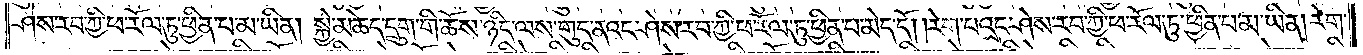ཤེས་རབ་ཀྱི་ཕ་རོལ་ཏུ་ཕྱིན་པ་མ་ཡིན། སྐྱེ་མཆེད་དྲུག་གི་ཆོས་ཉིད་ལས་གུད་ནའང་ཤེས་རབ་ཀྱི་ཕ་རོལ་ཏུ་ཕྱིན་པ་མེད་དོ། །རེག་པའང་ཤེས་རབ་ཀྱི་ཕ་རོལ་ཏུ་ཕྱིན་པ་མ་ཡིན། རེག་
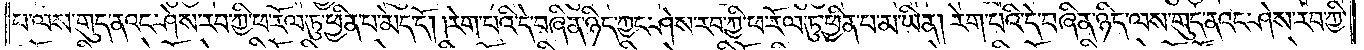པ་ལས་གུད་ནའང་ཤེས་རབ་ཀྱི་ཕ་རོལ་ཏུ་ཕྱིན་པ་མེད་དོ། །རེག་པའི་དེ་བཞིན་ཉིད་ཀྱང་ཤེས་རབ་ཀྱི་ཕ་རོལ་ཏུ་ཕྱིན་པ་མ་ཡིན། རེག་པའི་དེ་བཞིན་ཉིད་ལས་གུད་ནའང་ཤེས་རབ་ཀྱི་
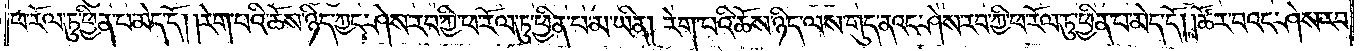ཕ་རོལ་ཏུ་ཕྱིན་པ་མེད་དོ། །རེག་པའི་ཆོས་ཉིད་ཀྱང་ཤེས་རབ་ཀྱི་ཕ་རོལ་ཏུ་ཕྱིན་པ་མ་ཡིན། རེག་པའི་ཆོས་ཉིད་ལས་གུད་ནའང་ཤེས་རབ་ཀྱི་ཕ་རོལ་ཏུ་ཕྱིན་པ་མེད་དོ། །ཚོར་བའང་ཤེས་རབ་
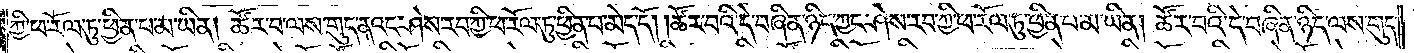ཀྱི་ཕ་རོལ་ཏུ་ཕྱིན་པ་མ་ཡིན། ཚོར་བ་ལས་གུད་ནའང་ཤེས་རབ་ཀྱི་ཕ་རོལ་ཏུ་ཕྱིན་པ་མེད་དོ། །ཚོར་བའི་དེ་བཞིན་ཉིད་ཀྱང་ཤེས་རབ་ཀྱི་ཕ་རོལ་ཏུ་ཕྱིན་པ་མ་ཡིན། ཚོར་བའི་དེ་བཞིན་ཉིད་ལས་གུད་
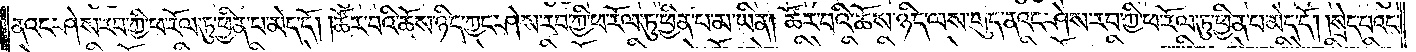ནའང་ཤེས་རབ་ཀྱི་ཕ་རོལ་ཏུ་ཕྱིན་པ་མེད་དོ། །ཚོར་བའི་ཆོས་ཉིད་ཀྱང་ཤེས་རབ་ཀྱི་ཕ་རོལ་ཏུ་ཕྱིན་པ་མ་ཡིན། ཚོར་བའི་ཆོས་ཉིད་ལས་གུད་ནའང་ཤེས་རབ་ཀྱི་ཕ་རོལ་ཏུ་ཕྱིན་པ་མེད་དོ། །སྲེད་པའང་
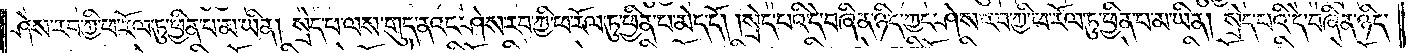ཤེས་རབ་ཀྱི་ཕ་རོལ་ཏུ་ཕྱིན་པ་མ་ཡིན། སྲེད་པ་ལས་གུད་ནའང་ཤེས་རབ་ཀྱི་ཕ་རོལ་ཏུ་ཕྱིན་པ་མེད་དོ། །སྲེད་པའི་དེ་བཞིན་ཉིད་ཀྱང་ཤེས་རབ་ཀྱི་ཕ་རོལ་ཏུ་ཕྱིན་པ་མ་ཡིན། སྲེད་པའི་དེ་བཞིན་ཉིད་
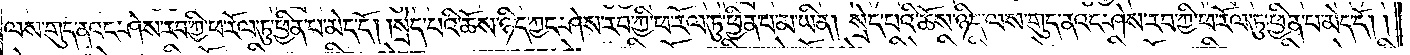ལས་གུད་ནའང་ཤེས་རབ་ཀྱི་ཕ་རོལ་ཏུ་ཕྱིན་པ་མེད་དོ། །སྲེད་པའི་ཆོས་ཉིད་ཀྱང་ཤེས་རབ་ཀྱི་ཕ་རོལ་ཏུ་ཕྱིན་པ་མ་ཡིན། སྲེད་པའི་ཆོས་ཉིད་ལས་གུད་ནའང་ཤེས་རབ་ཀྱི་ཕ་རོལ་ཏུ་ཕྱིན་པ་མེད་དོ། །
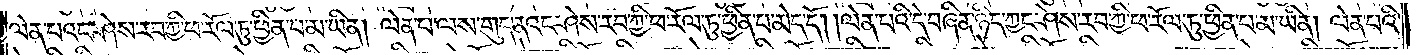ལེན་པའང་ཤེས་རབ་ཀྱི་ཕ་རོལ་ཏུ་ཕྱིན་པ་མ་ཡིན། ལེན་པ་ལས་གུད་ནའང་ཤེས་རབ་ཀྱི་ཕ་རོལ་ཏུ་ཕྱིན་པ་མེད་དོ། །ལེན་པའི་དེ་བཞིན་ཉིད་ཀྱང་ཤེས་རབ་ཀྱི་ཕ་རོལ་ཏུ་ཕྱིན་པ་མ་ཡིན། ལེན་པའི་
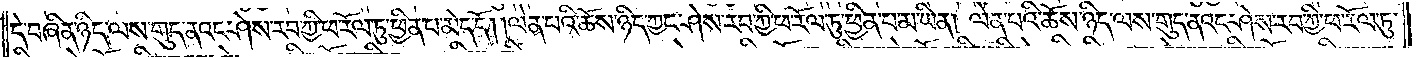དེ་བཞིན་ཉིད་ལས་གུད་ནའང་ཤེས་རབ་ཀྱི་ཕ་རོལ་ཏུ་ཕྱིན་པ་མེད་དོ། །ལེན་པའི་ཆོས་ཉིད་ཀྱང་ཤེས་རབ་ཀྱི་ཕ་རོལ་ཏུ་ཕྱིན་པ་མ་ཡིན། ལེན་པའི་ཆོས་ཉིད་ལས་གུད་ནའང་ཤེས་རབ་ཀྱི་ཕ་རོལ་ཏུ་
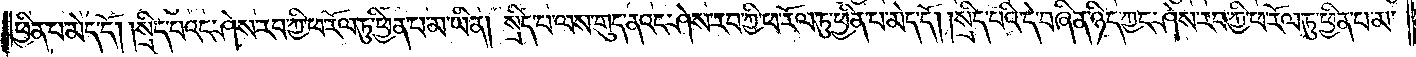ཕྱིན་པ་མེད་དོ། །སྲིད་པའང་ཤེས་རབ་ཀྱི་ཕ་རོལ་ཏུ་ཕྱིན་པ་མ་ཡིན། སྲིད་པ་ལས་གུད་ནའང་ཤེས་རབ་ཀྱི་ཕ་རོལ་ཏུ་ཕྱིན་པ་མེད་དོ། །སྲིད་པའི་དེ་བཞིན་ཉིད་ཀྱང་ཤེས་རབ་ཀྱི་ཕ་རོལ་ཏུ་ཕྱིན་པ་མ་
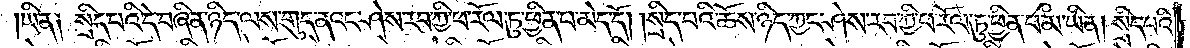ཡིན། སྲིད་པའི་དེ་བཞིན་ཉིད་ལས་གུད་ནའང་ཤེས་རབ་ཀྱི་ཕ་རོལ་ཏུ་ཕྱིན་པ་མེད་དོ། །སྲིད་པའི་ཆོས་ཉིད་ཀྱང་ཤེས་རབ་ཀྱི་ཕ་རོལ་ཏུ་ཕྱིན་པ་མ་ཡིན། སྲིད་པའི་
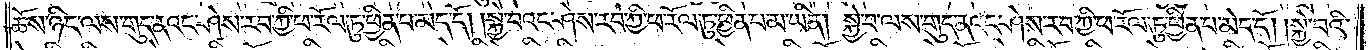ཆོས་ཉིད་ལས་གུད་ནའང་ཤེས་རབ་ཀྱི་ཕ་རོལ་ཏུ་ཕྱིན་པ་མེད་དོ། །སྐྱེ་བའང་ཤེས་རབ་ཀྱི་ཕ་རོལ་ཏུ་ཕྱིན་པ་མ་ཡིན། སྐྱེ་བ་ལས་གུད་ནའང་ཤེས་རབ་ཀྱི་ཕ་རོལ་ཏུ་ཕྱིན་པ་མེད་དོ། །སྐྱེ་བའི་
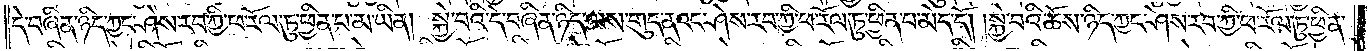དེ་བཞིན་ཉིད་ཀྱང་ཤེས་རབ་ཀྱི་ཕ་རོལ་ཏུ་ཕྱིན་པ་མ་ཡིན། སྐྱེ་བའི་དེ་བཞིན་ཉིད་ལས་གུད་ནའང་ཤེས་རབ་ཀྱི་ཕ་རོལ་ཏུ་ཕྱིན་པ་མེད་དོ། །སྐྱེ་བའི་ཆོས་ཉིད་ཀྱང་ཤེས་རབ་ཀྱི་ཕ་རོལ་ཏུ་ཕྱིན་
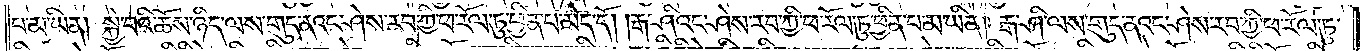པ་མ་ཡིན། སྐྱེ་བའི་ཆོས་ཉིད་ལས་གུད་ནའང་ཤེས་རབ་ཀྱི་ཕ་རོལ་ཏུ་ཕྱིན་པ་མེད་དོ། །རྒ་ཤིའང་ཤེས་རབ་ཀྱི་ཕ་རོལ་ཏུ་ཕྱིན་པ་མ་ཡིན། རྒ་ཤི་ལས་གུད་ནའང་ཤེས་རབ་ཀྱི་ཕ་རོལ་ཏུ་
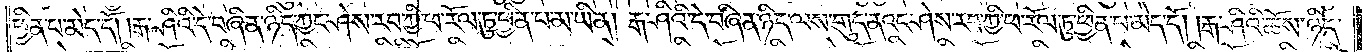ཕྱིན་པ་མེད་དོ། །རྒ་ཤིའི་དེ་བཞིན་ཉིད་ཀྱང་ཤེས་རབ་ཀྱི་ཕ་རོལ་ཏུ་ཕྱིན་པ་མ་ཡིན། རྒ་ཤིའི་དེ་བཞིན་ཉིད་ལས་གུད་ནའང་ཤེས་རབ་ཀྱི་ཕ་རོལ་ཏུ་ཕྱིན་པ་མེད་དོ། །རྒ་ཤིའི་ཆོས་ཉིད་
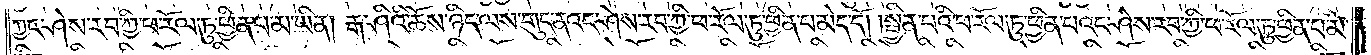ཀྱང་ཤེས་རབ་ཀྱི་ཕ་རོལ་ཏུ་ཕྱིན་པ་མ་ཡིན། རྒ་ཤིའི་ཆོས་ཉིད་ལས་གུད་ནའང་ཤེས་རབ་ཀྱི་ཕ་རོལ་ཏུ་ཕྱིན་པ་མེད་དོ། །སྦྱིན་པའི་ཕ་རོལ་ཏུ་ཕྱིན་པའང་ཤེས་རབ་ཀྱི་ཕ་རོལ་ཏུ་ཕྱིན་པ་མ་
